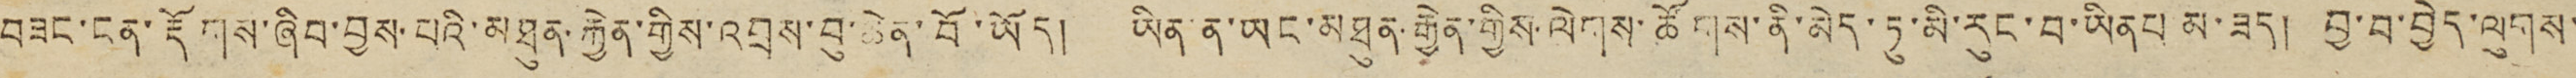བཟང་ངན་རྡོགས་ཞིབ་བྱས་པའི་མཐུན་རྐྱེན་གྱིས་འབྲས་བུ་ཆེན་པོ་ཡོད། ཡིན་ན་ཡང་མཐུན་རྒྱེན་གྱིས་ལེགས་ཚོགས་ནི་མེད་ཏུ་མི་རུང་བ་ཡིནཔ མ་ཟད། བྱ་བ་བྱེད་ལུགས་
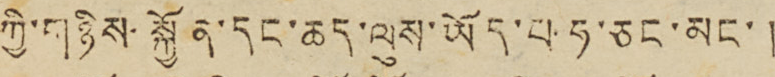ཀྱི་གཉིས་སྐྱོན་དང་ཆར་ལུས་ཡོད་པ་ཧ་ཅང་མང་།
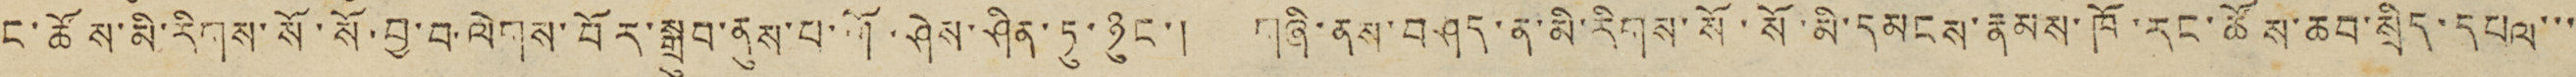ང་ཚོས་མི་རིགས་སོ་སོ་བྱ་བ་ལེགས་བོར་སྒྲུབ་ནུས་པ་གོ་ཤེས་ཤིན་ཏུ་ཉུང་། གཞི་ནས་བཤད་ན་མི་རིགས་སོ་སོ་མི་དམངས་རྣམས་ཁོ་རང་ཚོས་ཆབ་སྲིད་དཔལ་་་
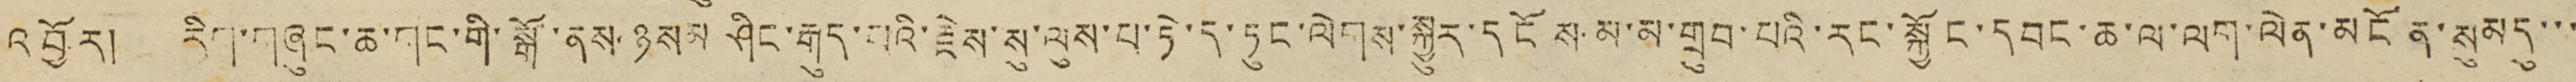འབྱོར། རིག་གཞུང་ཆ་གང་གི་སྒོ་ནས་ཉམས ཤིང་རྒུད་པའི་རྗེས་སུ་ལུས་པ་ཏེ་ད་ཏུང་ལེགས་སྐྱུར་དངོས་མ་མ་གྲུབ་པའི་རང་སྐྱོང་དབང་ཆ་ལ་ལག་ལེན་མངོན་སུམ དུ་་་
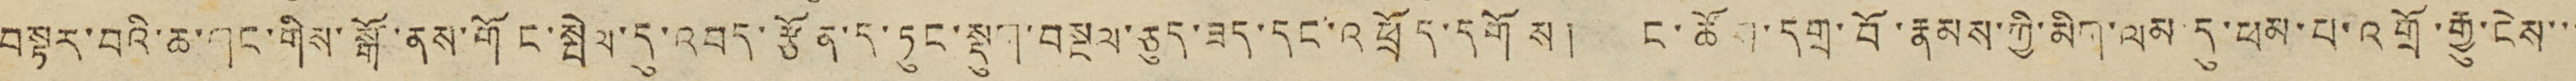བསྟར་བའི་ཆ་གང་གིས་སྒོ་ནས་གོང་སྤེལ་དུ་འབད་རྩོན་ད་ཏུང་སྡུག་བསྔལ་ཅུད་ཟད་དང་འཕྲོད་དགོས། ང་ཚོས་དགྲ་བོ་རྣམས་ཀྱི་མིག་ལམ་དུ་ཕམ་པ་འགྲོ་རྒྱུ་ངེས་་་
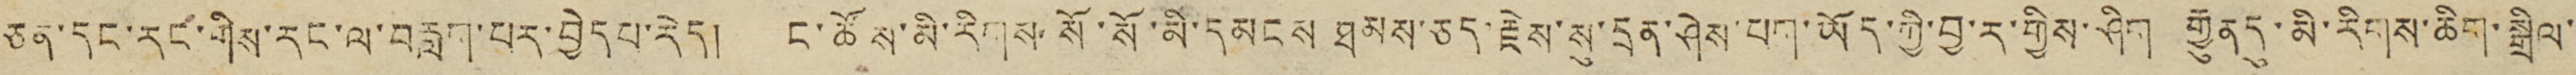ཅན་དང་རང་གིས་རང་ལ་བརླག་པར་བྱེདཔ་རེད། ང་ཚོས་མི་རིགས་སོ་སོ་མི་དམངས ཐམས་ཅད་རྗེས་སུ་དྲན་ཤེས་པག་ཡོད་ཀྱི་བྱ་ར་གྱིས་ཤིག རྒྱུན དུ་མི་རིགས་ཆིག་སྒྲིལ་
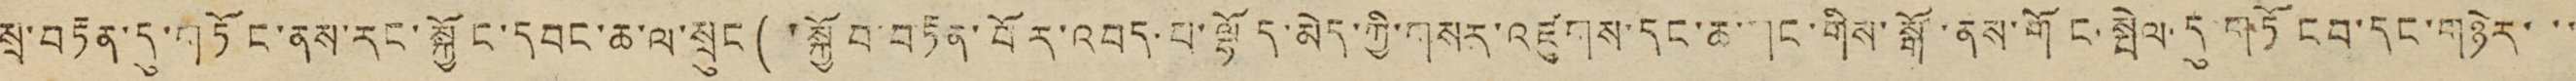སྲ་བརྟན་དུ་གཏོང་ནས་རང་སྐྱོང་དབང་ཆ་ལ་སྲུང(་སྐྱོབ་བརྟན་པོར་འབད་པ་ལྷོད་མེད་ཀྱི་གསར་འཛུགས་དང་ཆ་གང་གིས་སྒོ་ནས་གོང་སྤེལ་དུ གཏོངབ་དང་གཉེར་་་
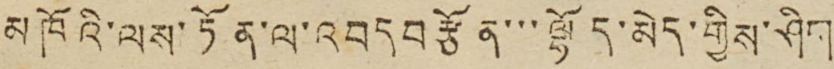མཁོའི་ལས་ཏོན་ལ་འབདབརྩོན་་་ལྷོད་མེད་གྱིས་ཤིག
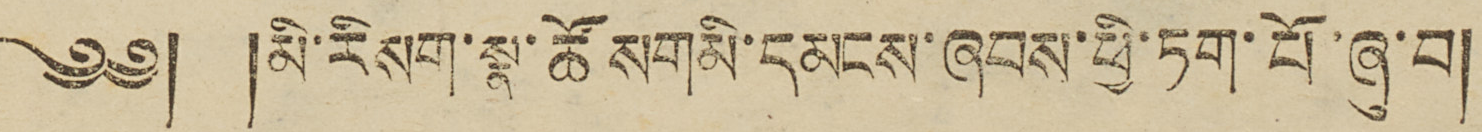༄༅། །མི་རིསག་སྣ་ཚོསགམི་དམངས་ཞབས་ཕྱི་ཏག་པོ་ཞུ་བ།
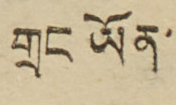གྲང ཡོན་
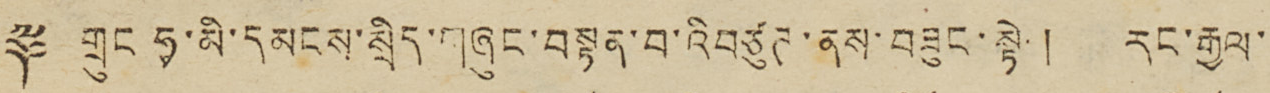༈ གྲུང ཧྭ་མི་དམངས་སྲིད་གཞུང་བསྟན་བ་འིབཙུཊ་ནས་བཟུང་སྟེ། རང་རྒྱལ་
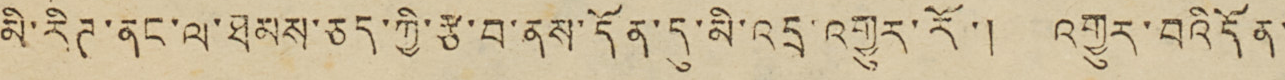མི་རིཊ་ནང་ལ་ཐམས་ཅད་ཀྱི་རྩ་བ་ནས་དོན་དུ་མི་འདྲ་འགྱུར་རོ་། འགྱུར་བའིདོན་
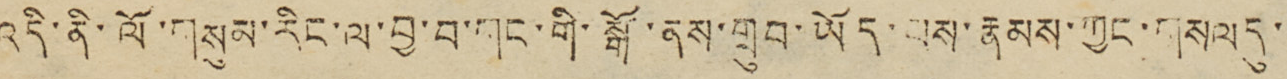འདི་ནི་ལོ་གསུམ་རིང་ལ་བྱ་བ་གང་གི་སྒོ་ནས་གྲུབ་ཡོད་པས་རྣམས་ཀྱང་གསལདུ་
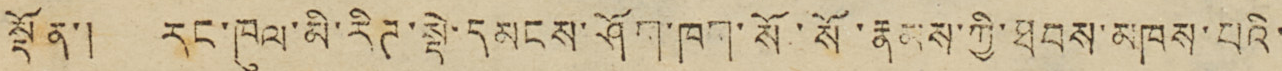སྡོན་། རང་ཁུལ་མི་རིཊ་སྡེ་དམངས་ཤོག་ཁག་སོ་སོ་རྣམས་ཀྱི་ཐབས་མཁས་པའི་
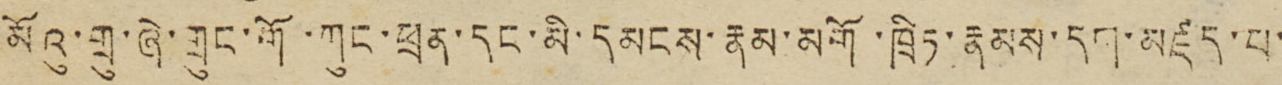མོའུ་གྲུ་ཞེ་གྲུང་གོ་ཀུང་ཕྲན་དང་མི་དམངས་རྣམ་མགོ་ཁྲིཏ་རྣམས་དག་མཛད་པ་
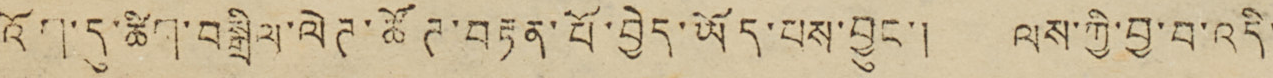འོག་དུ་ཚིག་བསྒྲིལ་ལེཊ་ཚོཊ་བརྟན་པོ་བྱེད་ཡོད་པས་བྱུང་། ལས་ཀྱི་བྱ་བ་འདི་
